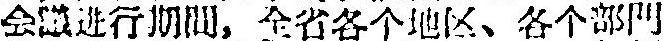会議进行期間，全省各个地区、各个部門
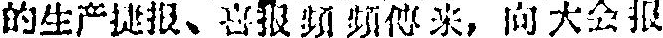的生产捷报、喜报頻頻傳来，向大会报
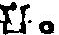喜。
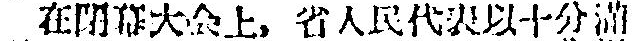在閉幕大会上。省人民代表以十分滿
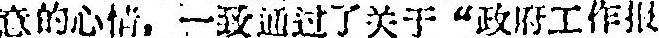意的心情，一致通过了关于“政府工作报
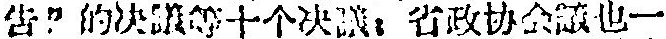告”的決議等十个決議：省政协会議也一
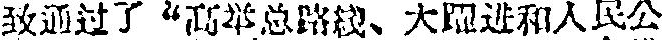致通过了“高举总路綫、大躍进和人民公
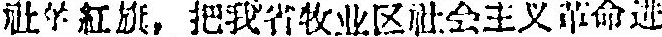社的紅旗，把我省牧业区社会主义革命进
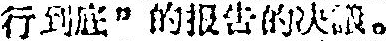行到底”的报告的決議。
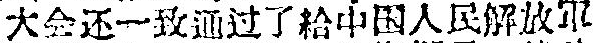大会还一致通过了給中国人民解放軍
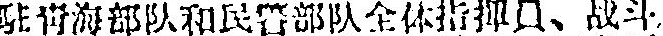駐靑海部队和民警部队全体指揮員、战斗
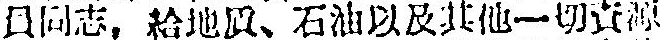員同志，給地貭、石油以及其他一切資源
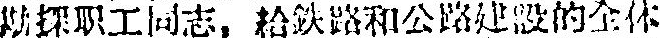勘探职工同志，給鉄路和公路建設的全体
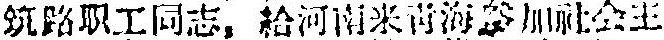筑路职工同志，給河南来靑海參加社会主
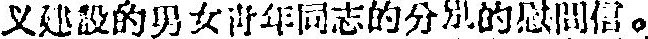义建設的男女靑年同志的分别的慰間信。
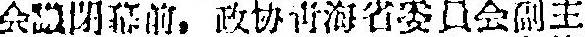会議閉幕前，政协靑海省委員会副主
